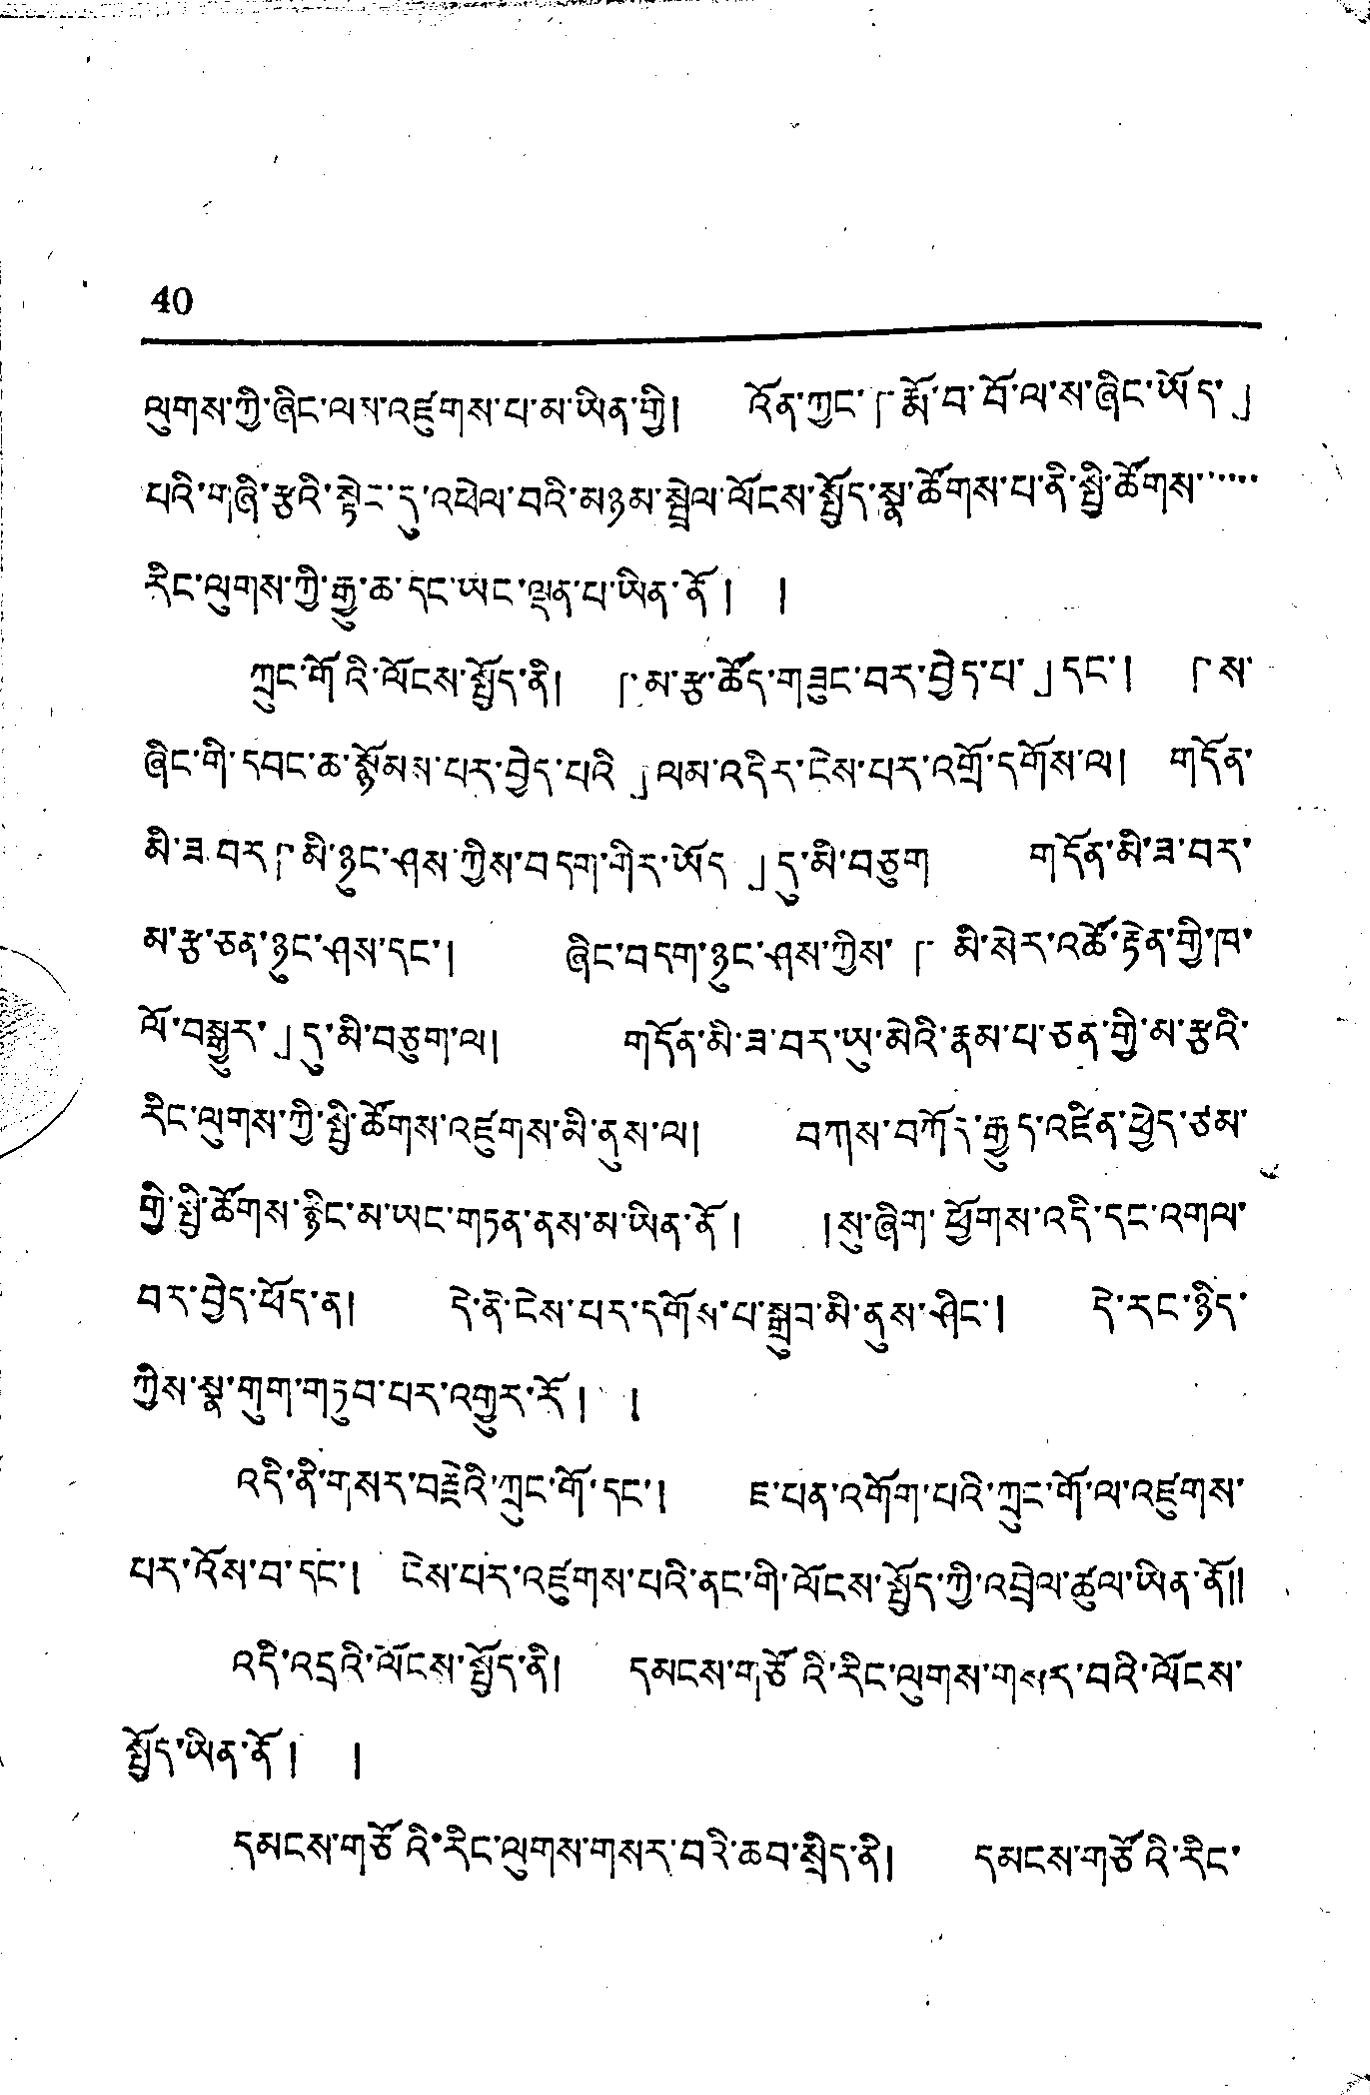40
ལུགས་ཀྱི་ཞིང་ལས་འཛུགས་པ་མ་ཡིན་གྱི། འོན་ཀྱང་「རྨོ་བ་བོ་ལ་ས་ཞིང་ཡོད་」
པའི་གཞི་རྩའི་སྟེང་དུ་འཕེལ་བའི་མཉམ་སྦྲེལ་ལོངས་སྤྱོད་སྣ་ཚོགས་པ་ནི་སྤྱི་ཚོགས་་་་་་
རིང་ལུགས་ཀྱི་རྒྱུ་ཆ་དང་ཡང་ལྡན་པ་ཡིན་ནོ། །
ཀྲུང་གོའི་ལོངས་སྤྱོད་ནི། 「མ་རྩ་ཚོད་གཟུང་བར་བྱེད་པ་」དང་། 「ས་
ཞིང་གི་དབང་ཆ་སྙོམས་པར་བྱེད་པའི་」ལམ་འདིར་ངེས་པར་འགྲོ་དགོས་ལ། གདོན་
མི་ཟ བར「མི་ཉང་ཤས་ཀྱིས་བདག་གིར་ཡོད」དུ་མི་བཅུག གདོན་མི་ཟ་བར་
མ་རྩ་ཅན་ཉུང་ཤས་དང་། ཞིང་བདག་ཉུང་ཤས་ཀྱིས་「མི་སེར་འཚོ་རྟེན་གྱི་ཁ་
ལོ་བསྒྱུར་」དུ་མི་བཅུག་ལ། གདོན་མི་ཟ་བར་ཡུ་མེའི་རྣམ་པ་ཅན་གྱི་མ་རྩའི་
རིང་ལུགས་ཀྱི་སྤྱི་ཚོགས་འཛུགས་མི་ནུས་ལ། བཀས་བཀོར་རྒྱུད་འཛིན་ཕྱེད་ཙམ་
ཀྱི་སྤྱི་ཚོགས་རྙིང་མ་ཡང་གཏན་ནས་མ་ཡིན་ནོ། །སུ་ཞིག་ཕྱོགས་འདི་དང་འགལ་
བར་བྱེད་ཕོད་ན། དེ་ནི་ངེས་པར་དགོས་པ་སྒྲུབ་མི་ནུས་ཤིང་། དེ་རང་ཉིད་
ཀྱིས་སྣ་གུག་གཏུབ་པར་འགྱུར་རོ། །
འདི་ནི་གསར་བརྗེའི་ཀྲུང་གོ་དང་། ཇ་པན་འགོག་པའི་ཀྲུང་གོ་ལ་འཛུགས་
པར་འོས་བ་དང་། ངེས་པར་འཛུགས་པའི་ནང་གི་ལོངས་སྤྱོད་ཀྱི་འབྲེལ་ཚུལ་ཡིན་ནོ༎
འདི་འདྲའི་ལོངས་སྤྱོད་ནི། དམངས་གཙོའི་རིང་ལུགས་གསར་བའི་ལོངས་
སྤྱོད་ཡིན་ནོ། །
དམངས་གཙོའི་རིང་ལུགས་གསར་བའི་ཆབ་སྲིད་ནི། དམངས་གཙོའི་རིང་
